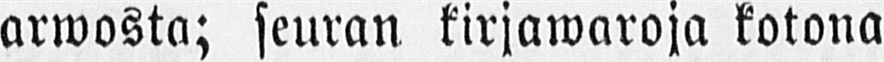arwosta; seuran kirjawaroja kotona
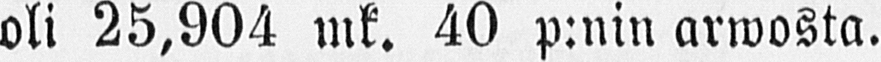oli 25,904 mk. 40 p:nin arwosta.
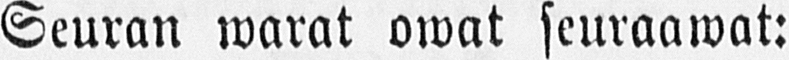Seuran warat owat seuraawat:
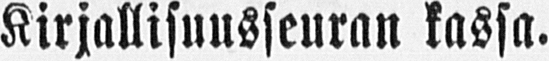a) Kirjallisuusseuran kassa.
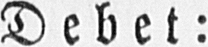Debet:
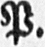P.
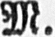M.
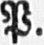P.
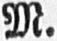M.
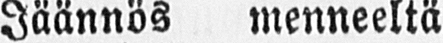Jäännös menneeltä
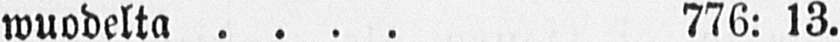wuodelta 776: 13.
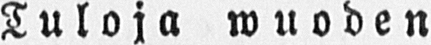Tuloja wuoden
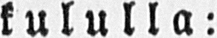kululla:
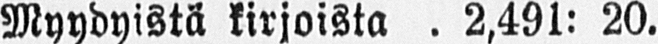Myydyistä kirjoista 2,491: 20.
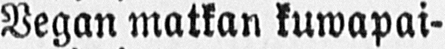Vegan matkan kuwapai-
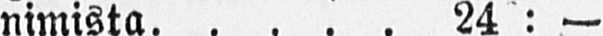nimista 24: —
